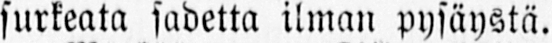surkeata sadetta ilman pysäystä.
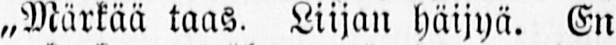„Märkää taas. Liisan häijyä. En
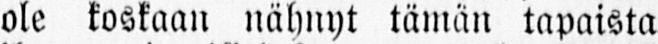ole koskaan nähnyt tämän tapaista
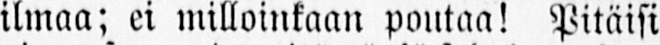ilmaa; ei milloinkaan poutaa! Pitäisi
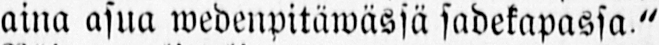aina asua wedenpitawäsaä sadekapassa,"
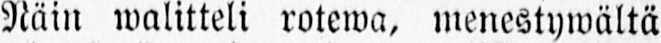Näin walitteli rotewa, menestywältä
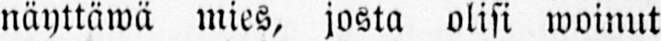näyttäwä mies, josta olisi woinut
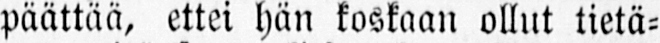päättää, ettei hän koskaan ollut tietä-
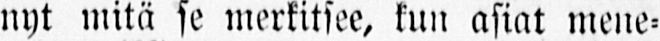nyt mitä se merkitsee, kun asiat mene-
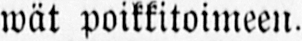wät poikkitoimeen,
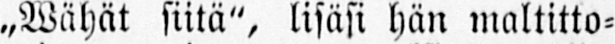„Wähät siitä", lisäsi hän maltitto-
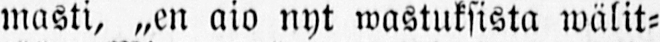masti, „en aio nyt wastuksista wälit-
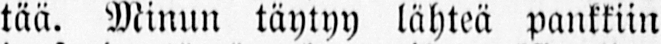tää. Minun täytyy lähteä pankkiin
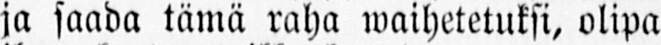ja saada tämä raha waihetetuksi, olipa
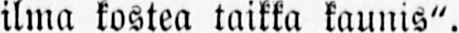ilma kostea taikka kaunis".
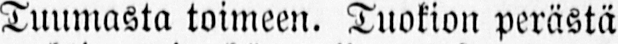Tuumasta toimeen. Tuokion perästä
